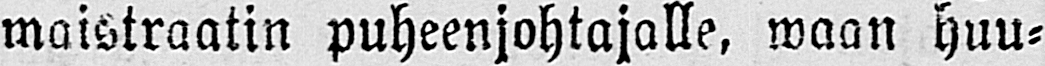maistraatin puheenjohtajalle, waan huu-
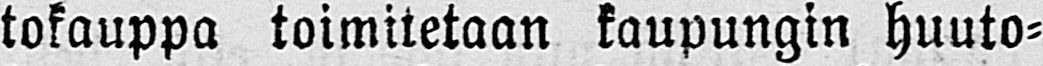tokauppa toimitetaan kaupungin huuto-
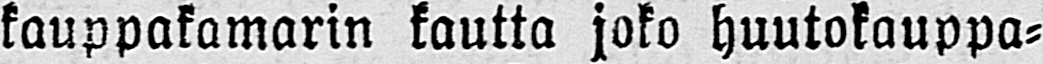kauppakamarin kautta joko huutokauppa-
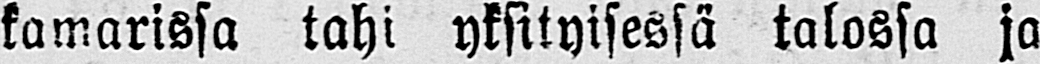kamarissa tahi yksityisessä talossa ja
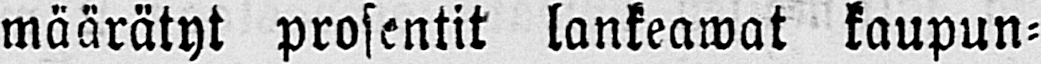määrätyt prosentit lankeawat kaupun-
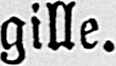gille.
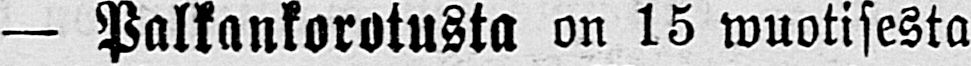— Palkankorotusta on 15 wuotisesta
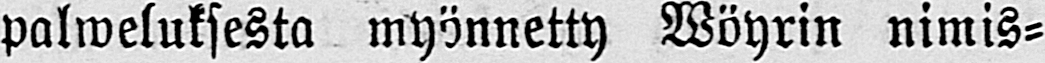palweluksesta myönnetty Wöyrin nimis-
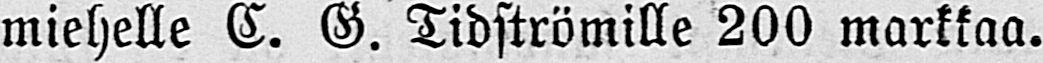miehelle C. G. Tidströmille 200 markkaa.
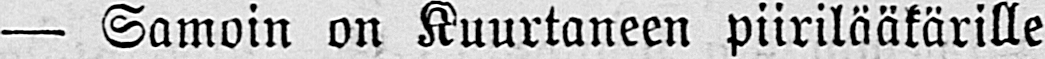— Samoin on Kuurtaneen piirilääkärille
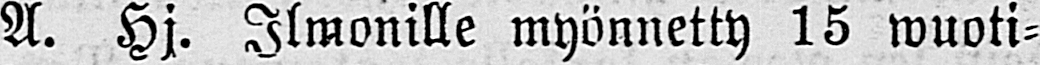A. Hj. Ilmonille myönnetty 15 wuoti-
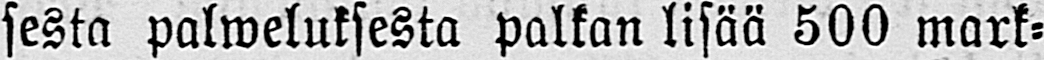sesta palweluksesta palkan lisää 500 mark-
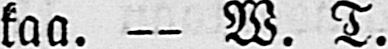kaa. — W. T.
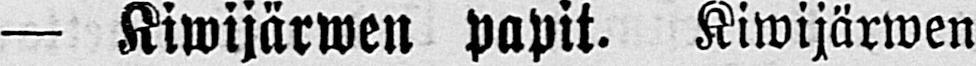— Kiwijärwen papit. Kiwijärwen
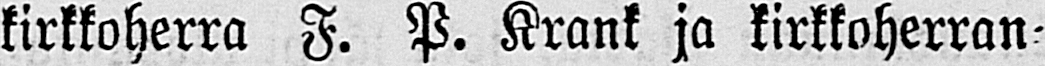kirkkoherra F. P. Krank ja kirkkoherran-
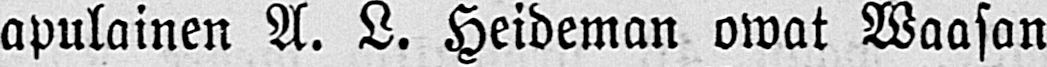apulainen A. L. Heideman owat Waasan
